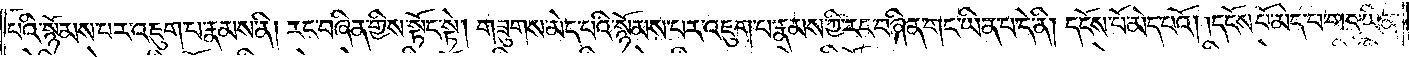པའི་སྙོམས་པར་འཇུག་པ་རྣམས་ནི། རང་བཞིན་གྱིས་སྟོང་སྟེ། གཟུགས་མེད་པའི་སྙོམས་པར་འཇུག་པ་རྣམས་ཀྱི་རང་བཞིན་གང་ཡིན་པ་དེ་ནི། དངོས་པོ་མེད་པའོ། །དངོས་པོ་མེད་པ་གང་ཡིན་
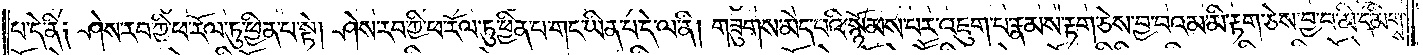པ་དེ་ནི༑ ཤེས་རབ་ཀྱི་ཕ་རོལ་ཏུ་ཕྱིན་པ་སྟེ། ཤེས་རབ་ཀྱི་ཕ་རོལ་ཏུ་ཕྱིན་པ་གང་ཡིན་པ་དེ་ལ་ནི། གཟུགས་མེད་པའི་སྙོམས་པར་འཇུག་པ་རྣམས་རྟག་ཅེས་བྱ་བའམ་མི་རྟག་ཅེས་བྱ་བ་མི་དམིགས་
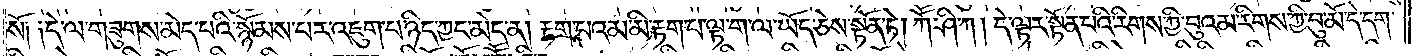སོ༑ ༑དེ་ལ་གཟུགས་མེད་པའི་སྙོམས་པར་འཇུག་པ་ཉིད་ཀྱང་མེད་ན། རྟག་པའམ་མི་རྟག་པ་ལྟ་ག་ལ་ཡོད་ཅེས་སྟོན་ཏེ། ཀཽ་ཤི་ཀ། དེ་ལྟར་སྟོན་པའི་རིགས་ཀྱི་བུའམ་རིགས་ཀྱི་བུ་མོ་དེ་དག་
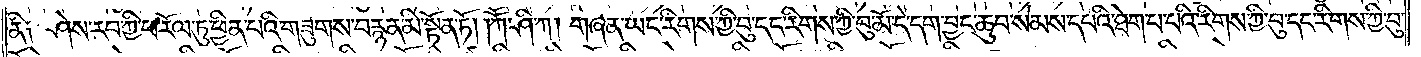ནི༑ ཤེས་རབ་ཀྱི་ཕ་རོལ་ཏུ་ཕྱིན་པའི་གཟུགས་བརྙན་མི་སྟོན་ཏོ། །ཀཽ་ཤི་ཀ། གཞན་ཡང་རིགས་ཀྱི་བུ་དང་རིགས་ཀྱི་བུ་མོ་དེ་དག་བྱང་ཆུབ་སེམས་དཔའི་ཐེག་པ་པའི་རིགས་ཀྱི་བུ་དང་རིགས་ཀྱི་བུ་
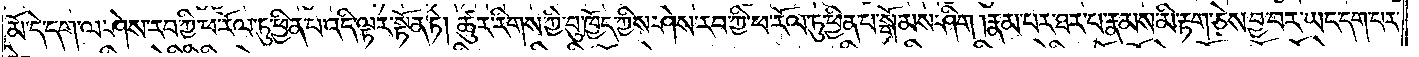མོ་དེ་དག་ལ་ཤེས་རབ་ཀྱི་ཕ་རོལ་ཏུ་ཕྱིན་པ་འདི་ལྟར་སྟོན་ཏེ། ཚུར་རིགས་ཀྱི་བུ་ཁྱོད་ཀྱིས་ཤེས་རབ་ཀྱི་ཕ་རོལ་ཏུ་ཕྱིན་པ་སྒོམས་ཤིག །རྣམ་པར་ཐར་པ་རྣམས་མི་རྟག་ཅེས་བྱ་བར་ཡང་དག་པར་
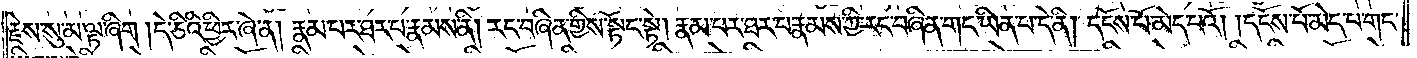རྗེས་སུ་མ་ལྟ་ཞིག །དེ་ཅིའི་ཕྱིར་ཞེ་ན། རྣམ་པར་ཐར་པ་རྣམས་ནི། རང་བཞིན་གྱིས་སྟོང་སྟེ། རྣམ་པར་ཐར་པ་རྣམས་ཀྱི་རང་བཞིན་གང་ཡིན་པ་དེ་ནི། དངོས་པོ་མེད་པའོ། །དངོས་པོ་མེད་པ་གང་
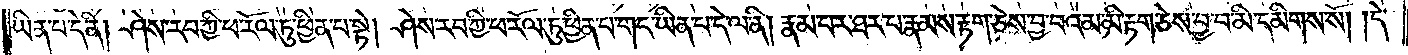ཡིན་པ་དེ་ནི། ཤེས་རབ་ཀྱི་ཕ་རོལ་ཏུ་ཕྱིན་པ་སྟེ། ཤེས་རབ་ཀྱི་ཕ་རོལ་ཏུ་ཕྱིན་པ་གང་ཡིན་པ་དེ་ལ་ནི། རྣམ་པར་ཐར་པ་རྣམས་རྟག་ཅེས་བྱ་བའམ་མི་རྟག་ཅེས་བྱ་བ་མི་དམིགས་སོ། །དེ་
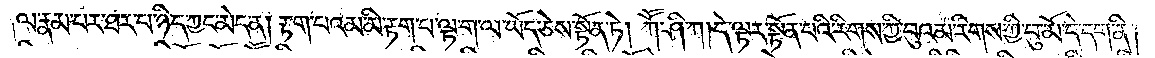ལ་རྣམ་པར་ཐར་པ་ཉིད་ཀྱང་མེད་ན། རྟག་པའམ་མི་རྟག་པ་ལྟ་ག་ལ་ཡོད་ཅེས་སྟོན་ཏེ། ཀཽ་ཤི་ཀ། དེ་ལྟར་སྟོན་པའི་རིགས་ཀྱི་བུའམ་རིགས་ཀྱི་བུ་མོ་དེ་དག་ནི།
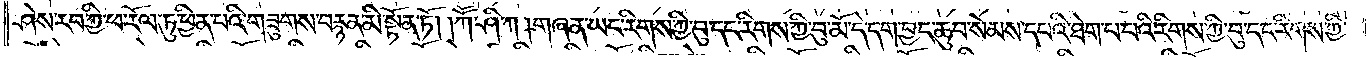ཤེས་རབ་ཀྱི་ཕ་རོལ་ཏུ་ཕྱིན་པའི་གཟུགས་བརྙན་མི་སྟོན་ཏོ། །ཀཽ་ཤི་ཀ། གཞན་ཡང་རིགས་ཀྱི་བུ་དང་རིགས་ཀྱི་བུ་མོ་དེ་དག་བྱང་ཆུབ་སེམས་དཔའི་ཐེག་པ་པའི་རིགས་ཀྱི་བུ་དང་རིགས་ཀྱི་
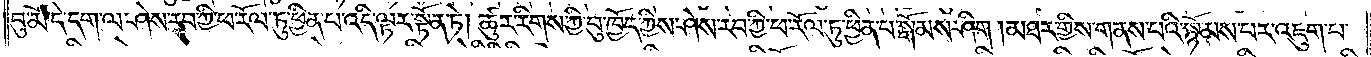བུ་མོ་དེ་དག་ལ་ཤེས་རབ་ཀྱི་ཕ་རོལ་ཏུ་ཕྱིན་པ་འདི་ལྟར་སྟོན་ཏེ། ཚུར་རིགས་ཀྱི་བུ་ཁྱོད་ཀྱིས་ཤེས་རབ་ཀྱི་ཕ་རོལ་ཏུ་ཕྱིན་པ་སྒོམས་ཤིག །མཐར་གྱིས་གནས་པའི་སྙོམས་པར་འཇུག་པ་
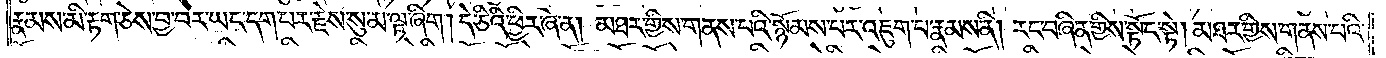རྣམས་མི་རྟག་ཅེས་བྱ་བར་ཡང་དག་པར་རྗེས་སུ་མ་ལྟ་ཞིག །དེ་ཅིའི་ཕྱིར་ཞེ་ན། མཐར་གྱིས་གནས་པའི་སྙོམས་པར་འཇུག་པ་རྣམས་ནི། རང་བཞིན་གྱིས་སྟོང་སྟེ། མཐར་གྱིས་གནས་པའི་
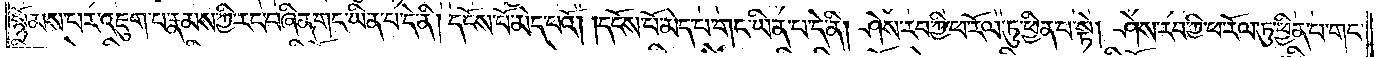སྙོམས་པར་འཇུག་པ་རྣམས་ཀྱི་རང་བཞིན་གང་ཡིན་པ་དེ་ནི། དངོས་པོ་མེད་པའོ། །དངོས་པོ་མེད་པ་གང་ཡིན་པ་དེ་ནི། ཤེས་རབ་ཀྱི་ཕ་རོལ་ཏུ་ཕྱིན་པ་སྟེ། ཤེས་རབ་ཀྱི་ཕ་རོལ་ཏུ་ཕྱིན་པ་གང་
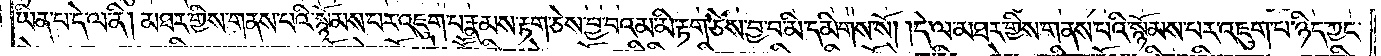ཡིན་པ་དེ་ལ་ནི། མཐར་གྱིས་གནས་པའི་སྙོམས་པར་འཇུག་པ་རྣམས་རྟག་ཅེས་བྱ་བའམ་མི་རྟག་ཅེས་བྱ་བ་མི་དམིགས་སོ། །དེ་ལ་མཐར་གྱིས་གནས་པའི་སྙོམས་པར་འཇུག་པ་ཉིད་ཀྱང་
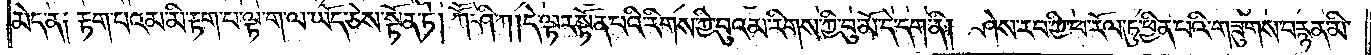མེད་ན༑ རྟག་པའམ་མི་རྟག་པ་ལྟ་ག་ལ་ཡོད་ཅེས་སྟོན་ཏེ། ཀཽ་ཤི་ཀ། དེ་ལྟར་སྟོན་པའི་རིགས་ཀྱི་བུའམ་རིགས་ཀྱི་བུ་མོ་དེ་དག་ནི། ཤེས་རབ་ཀྱི་ཕ་རོལ་ཏུ་ཕྱིན་པའི་གཟུགས་བརྙན་མི་
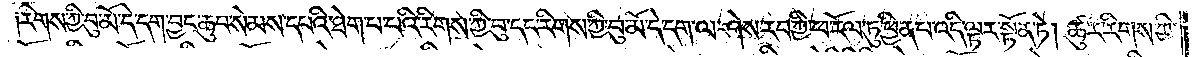རིགས་ཀྱི་བུ་མོ་དེ་དག་བྱང་ཆུབ་སེམས་དཔའི་ཐེག་པ་པའི་རིགས་ཀྱི་བུ་དང་རིགས་ཀྱི་བུ་མོ་དེ་དག་ལ་ཤེས་རབ་ཀྱི་ཕ་རོལ་ཏུ་ཕྱིན་པ་འདི་ལྟར་སྟོན་ཏེ། ཚུར་རིགས་ཀྱི་
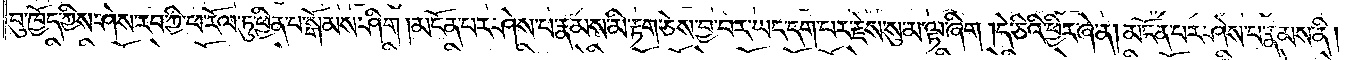བུ་ཁྱོད་ཀྱིས་ཤེས་རབ་ཀྱི་ཕ་རོལ་ཏུ་ཕྱིན་པ་སྒོམས་ཤིག །མངོན་པར་ཤེས་པ་རྣམས་མི་རྟག་ཅེས་བྱ་བར་ཡང་དག་པར་རྗེས་སུ་མ་ལྟ་ཞིག །དེ་ཅིའི་ཕྱིར་ཞེ་ན། མངོན་པར་ཤེས་པ་རྣམས་ནི།
